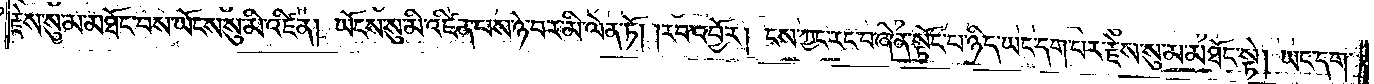རྗེས་སུ་མ་མཐོང་བས་ཡོངས་སུ་མི་འཛིན། ཡོངས་སུ་མི་འཛིན་པས་ཉེ་བར་མི་ལེན་ཏོ། །རབ་འབྱོར། ངས་ཀྱང་རང་བཞིན་སྟོང་པ་ཉིད་ཡང་དག་པར་རྗེས་སུ་མ་མཐོང་སྟེ། ཡང་དག་
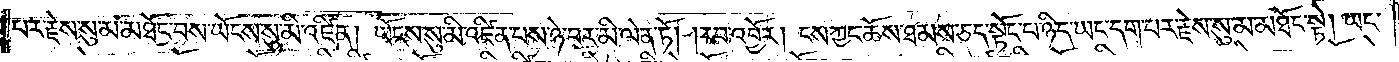པར་རྗེས་སུ་མ་མཐོང་བས་ཡོངས་སུ་མི་འཛིན། ཡོངས་སུ་མི་འཛིན་པས་ཉེ་བར་མི་ལེན་ཏོ། །རབ་འབྱོར། ངས་ཀྱང་ཆོས་ཐམས་ཅད་སྟོང་པ་ཉིད་ཡང་དག་པར་རྗེས་སུ་མ་མཐོང་སྟེ། ཡང་
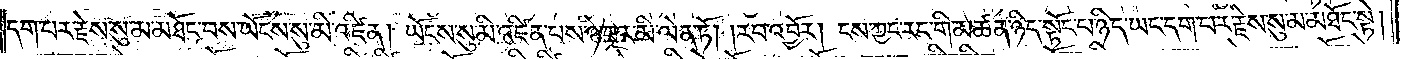དག་པར་རྗེས་སུ་མ་མཐོང་བས་ཡོངས་སུ་མི་འཛིན། ཡོངས་སུ་མི་འཛིན་པས་ཉེ་བར་མི་ལེན་ཏོ། །རབ་འབྱོར། ངས་ཀྱང་རང་གི་མཚན་ཉིད་སྟོང་པ་ཉིད་ཡང་དག་པར་རྗེས་སུ་མ་མཐོང་སྟེ།
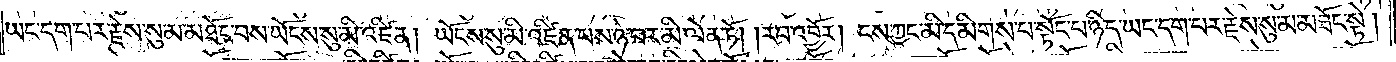ཡང་དག་པར་རྗེས་སུ་མ་མཐོང་བས་ཡོངས་སུ་མི་འཛིན། ཡོངས་སུ་མི་འཛིན་པས་ཉེ་བར་མི་ལེན་ཏོ། །རབ་འབྱོར། ངས་ཀྱང་མི་དམིགས་པ་སྟོང་པ་ཉིད་ཡང་དག་པར་རྗེས་སུ་མ་མཐོང་སྟེ།
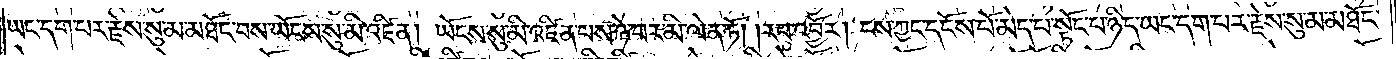ཡང་དག་པར་རྗེས་སུ་མ་མཐོང་བས་ཡོངས་སུ་མི་འཛིན། ཡོངས་སུ་མི་འཛིན་པས་ཉེ་བར་མི་ལེན་ཏོ། །རབ་འབྱོར། ངས་ཀྱང་དངོས་པོ་མེད་པ་སྟོང་པ་ཉིད་ཡང་དག་པར་རྗེས་སུ་མ་མཐོང་
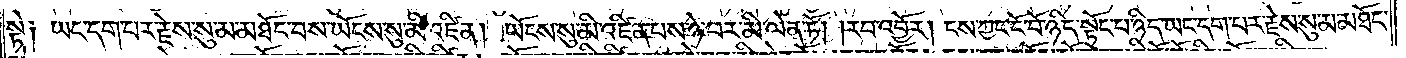སྟེ༑ ཡང་དག་པར་རྗེས་སུ་མ་མཐོང་བས་ཡོངས་སུ་མི་འཛིན། ཡོངས་སུ་མི་འཛིན་པས་ཉེ་བར་མི་ལེན་ཏོ། །རབ་འབྱོར། ངས་ཀྱང་ངོ་བོ་ཉིད་སྟོང་པ་ཉིད་ཡང་དག་པར་རྗེས་སུ་མ་མཐོང་
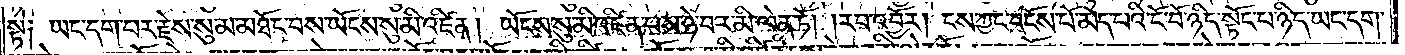སྟེ༑ ཡང་དག་པར་རྗེས་སུ་མ་མཐོང་བས་ཡོངས་སུ་མི་འཛིན། ཡོངས་སུ་མི་འཛིན་པས་ཉེ་བར་མི་ལེན་ཏོ། །རབ་འབྱོར། ངས་ཀྱང་དངོས་པོ་མེད་པའི་ངོ་བོ་ཉིད་སྟོང་པ་ཉིད་ཡང་དག་
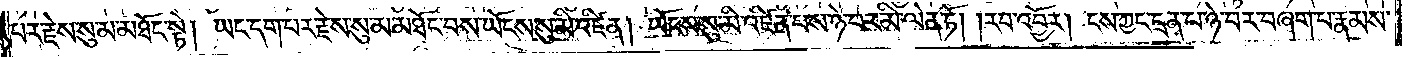པར་རྗེས་སུ་མ་མཐོང་སྟེ། ཡང་དག་པར་རྗེས་སུ་མ་མཐོང་བས་ཡོངས་སུ་མི་འཛིན། ཡོངས་སུ་མི་འཛིན་པས་ཉེ་བར་མི་ལེན་ཏོ། །རབ་འབྱོར། ངས་ཀྱང་དྲན་པ་ཉེ་བར་བཞག་པ་རྣམས་
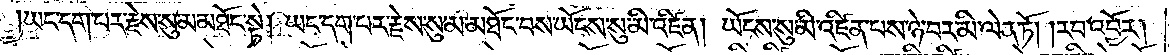ཡང་དག་པར་རྗེས་སུ་མ་མཐོང་སྟེ། ཡང་དག་པར་རྗེས་སུ་མ་མཐོང་བས་ཡོངས་སུ་མི་འཛིན། ཡོངས་སུ་མི་འཛིན་པས་ཉེ་བར་མི་ལེན་ཏོ། །རབ་འབྱོར།
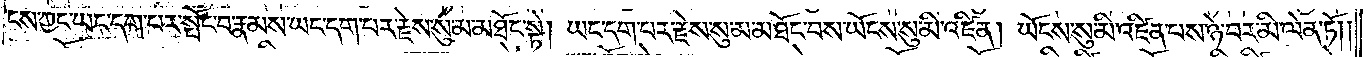ངས་ཀྱང་ཡང་དག་པར་སྤོང་བ་རྣམས་ཡང་དག་པར་རྗེས་སུ་མ་མཐོང་སྟེ། ཡང་དག་པར་རྗེས་སུ་མ་མཐོང་བས་ཡོངས་སུ་མི་འཛིན། ཡོངས་སུ་མི་འཛིན་པས་ཉེ་བར་མི་ལན་ཏོ༎
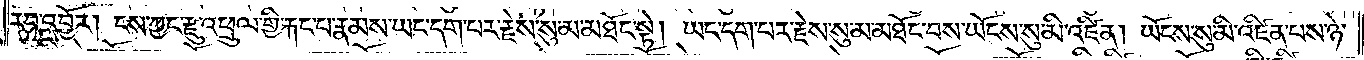རབ་འབྱོར། ངས་ཀྱང་རྫུ་འཕྲུལ་གྱི་རྐང་པ་རྣམས་ཡང་དག་པར་རྗེས་སུ་མ་མཐོང་སྟེ། ཡང་དག་པར་རྗེས་སུ་མ་མཐོང་བས་ཡོངས་སུ་མི་འཛིན། ཡོངས་སུ་མི་འཛིན་པས་ཉེ་
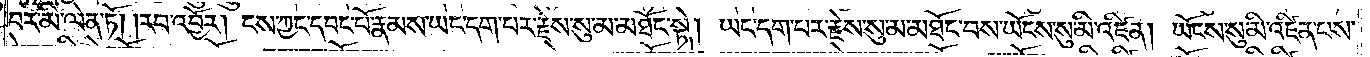བར་མི་ལེན་ཏོ། །རབ་འབྱོར། ངས་ཀྱང་དབང་པོ་རྣམས་ཡང་དག་པར་རྗེས་སུ་མ་མཐོང་སྟེ། ཡང་དག་པར་རྗེས་སུ་མ་མཐོང་བས་ཡོངས་སུ་མི་འཛིན། ཡོངས་སུ་མི་འཛིན་པས་
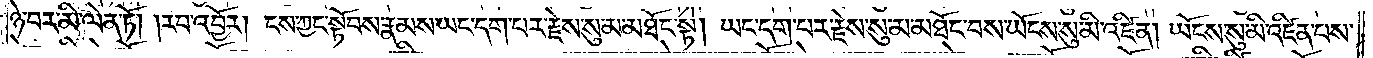ཉེ་བར་མི་ལེན་ཏོ། །རབ་འབྱོར། ངས་ཀྱང་སྟོབས་རྣམས་ཡང་དག་པར་རྗེས་སུ་མ་མཐོང་སྟེ། ཡང་དག་པར་རྗེས་སུ་མ་མཐོང་བས་ཡོངས་སུ་མི་འཛིན། ཡོངས་སུ་མི་འཛིན་པས་
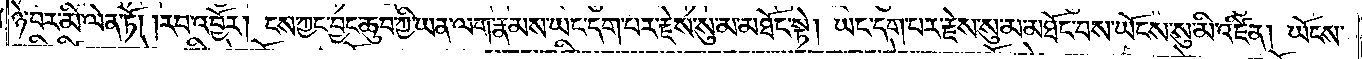ཉེ་བར་མི་ལེན་ཏོ། །རབ་འབྱོར། ངས་ཀྱང་བྱང་ཆུབ་ཀྱི་ཡན་ལག་རྣམས་ཡང་དག་པར་རྗེས་སུ་མ་མཐོང་སྟེ། ཡང་དག་པར་རྗེས་སུ་མ་མཐོང་བས་ཡོངས་སུ་མི་འཛིན། ཡོངས་
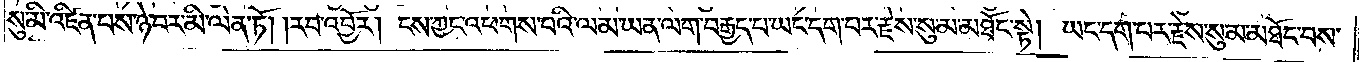སུ་མི་འཛིན་པས་ཉེ་བར་མི་ལེན་ཏོ། །རབ་འབྱོར། ངས་ཀྱང་འཕགས་པའི་ལམ་ཡན་ལག་བརྒྱད་པ་ཡང་དག་པར་རྗེས་སུ་མ་མཐོང་སྟེ། ཡང་དག་པར་རྗེས་སུ་མ་མཐོང་བས་
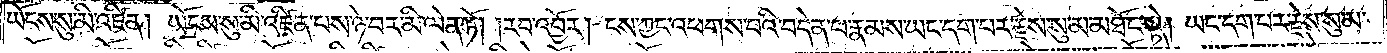ཡོངས་སུ་མི་འཛིན། ཡོངས་སུ་མི་འཛིན་པས་ཉེ་བར་མི་ལེན་ཏོ། །རབ་འབྱོར། ངས་ཀྱང་འཕགས་པའི་བདེན་པ་རྣམས་ཡང་དག་པར་རྗེས་སུ་མ་མཐོང་སྟེ། ཡང་དག་པར་རྗེས་སུ་མ་
